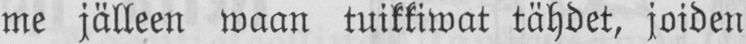me jälleen waan tuikkiwat tähdet, joiden
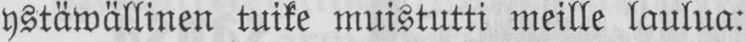ystäwällinen tuike muistutti meille laulua:
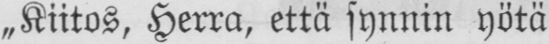„Kiitos, Herra, että synnin yötä
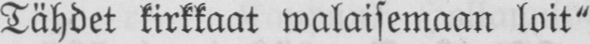Tähdet kirkkaat walaisemaan loit".
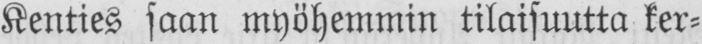Kenties saan myöhemmin tilaisuutta ker-
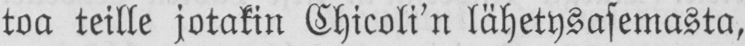toa teille jotakin Chicoli'n lähetysasemasta,
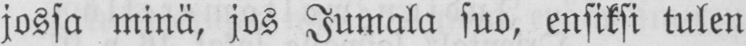jossa minä, jos Jumala suo, ensiksi tulen
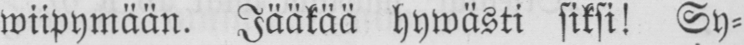wiipymään. Jääkää hywästi siksi! Sy-
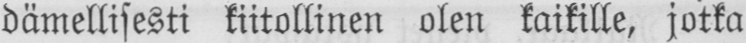dämellisesti kiitollinen olen kaikille, jotka
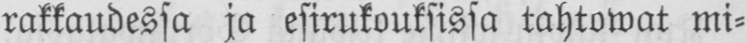rakkaudessa ja esirukouksissa tahtowat mi-
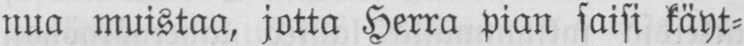nua muistaa, jotta Herra pian saisi käyt-
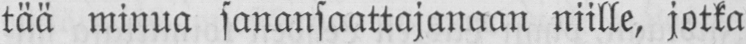tää minua sanansaattajanaan niille, jotka
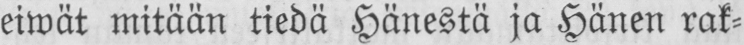eiwät mitään tiedä Hänestä ja Hänen rak-
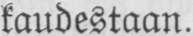kaudestaan.
